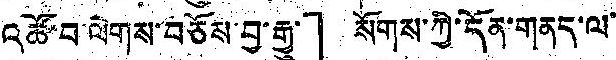འཚོ་བ་ལེགས་བཅོས་བྱ་རྒྱུ་」 སོགས་ཀྱི་དོན་གནད་ལ་
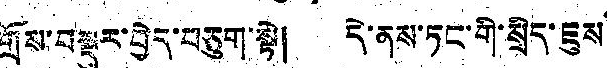གྲོས་བསྡུར་བྱེད་བཅུག་སྟེ། དེ་ནས་ཏང་གི་སྲིད་ཇུས་
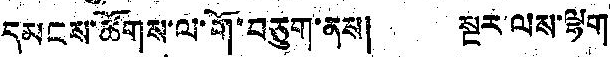དམངས་ཚོགས་ལ་གོ་བཅུག་ནས། སྔར་ལས་ལྷག་
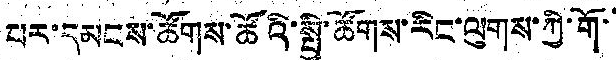པར་དམངས་ཚོགས་ཚོའི་སྤྱི་ཚོགས་རིང་ལུགས་ཀྱི་གོ་་
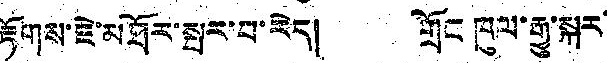རྟོགས་ཇེ་མཐོར་སྤར་བ་རེད། གྲོང ཁུལ་རྒྱུ་སྐར་
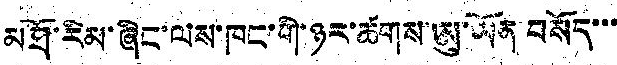མཐོ་རིམ་ཞིང་ལས་ཁང་གི་ཉར་ཚགས་ཨུ་ཡོན་བསོད་་་
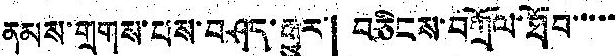ནམས་གྲགས་པས་བཤད་རྒྱུར་「བཅིངས་བཀྲོལ་ཐོབ་་་་་
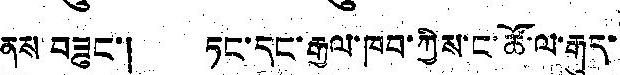ནས་བཟུང་། ཏང་དང་རྒྱལ་ཁབ་ཀྱིས་ང་ཚོ་ལ་རྒུད་
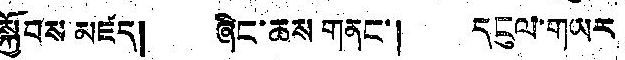སྐྱོབས མཛད། ཞིང་ཆས གནང་། དངུལ་གཡར
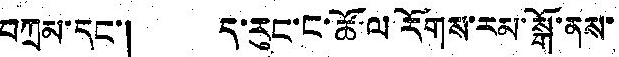བཀྲམ་དང་། ད་རུང་ང་ཚོ་ལ་རོགས་རམ་སྒོ་ནས་
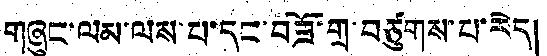གཞུང་ལམ་ལས་པ་དང་བཟོ་གྲ་བཙུགས་པ་རེད།
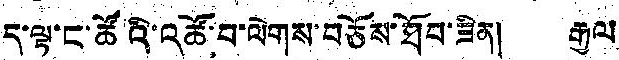ད་ལྟ་ང་ཚོའི་འཚོ་བ་ལེགས་བཅོས་ཐོབ་ཟིན། རྒྱལ
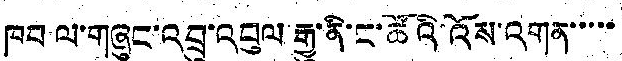ཁབ་ལ་གཞུང་འབྲུ་འབུལ་རྒྱུ་ནི་ང་ཚོའི་འོས་འགན་་་་་
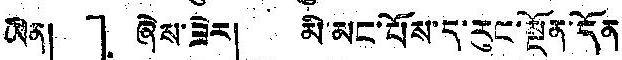ཡིན། 」 ཞེས་ཟེར། མི་མང་པོས་ད་རུང་སྔོན་དོན
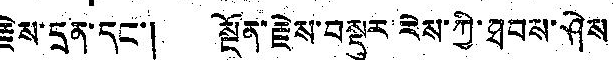རྗེས་དྲན་དང་། སྔོན་རྗེས་བསྡུར་རེས་ཀྱི་ཐབས་ཤེས
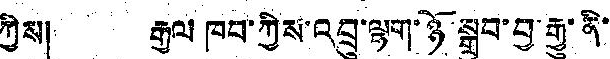ཀྱིས། རྒྱལ ཁབ་ཀྱིས་འབྲུ་ལྷག་ཉོ་སྒྲུབ་བྱ་རྒྱུ་ནི་
